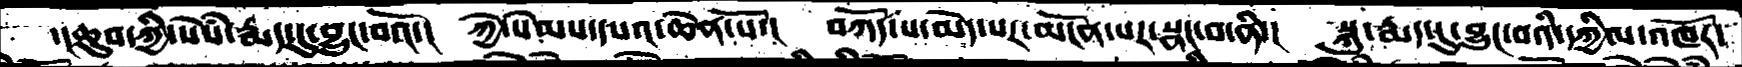་།ཆུབ་ཀྱི་སེཾས་རྨད་དུ་བྱུང་བའོ་།  ཀྱེ་སེམས་དཔའ་ཆེན་པོ་།  བཀོད་པ་མེད་པར་མངོན་པར་སྣང་བ་ནི་།  སྐུ་རྨད་དུ་བྱུང་བའི་དཀྱིལ་འཁོར་
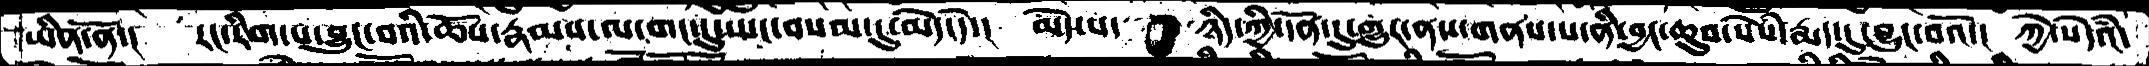ཡིན་ནོ་།  རང་རིག་པ་བྱུང་བའི་ཆོས་རྣམས་ལ་གང་དུ་ཡང་བསམ་དུ་མེད་དེ་།  མེད་པ་ཉིད་ཀྱི་དོན་དུ་གྱུར་ནས་གནས་པ་ནི་བྱང་ཆུབ་སེཾས་རྨད་དུ་བྱུང་བའོ་།  ཀྱེ་སེདཾའ་
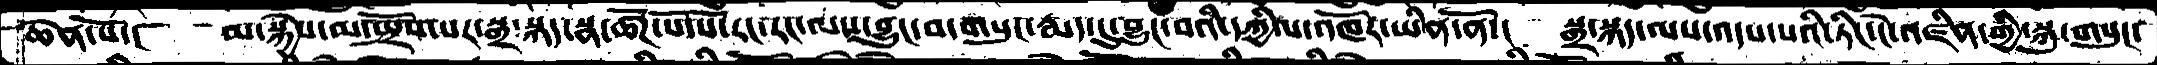ཆེན་པོ་།  མ་སྐྱེས་མ་སྤྲོས་པར་སྒྲ་སྐད་སྣ་ཚོཌ་སོ་སོ་རང་རང་ལས་བྱུང་བ་གསུང་རྨད་དུ་བྱུང་བའི་དཀྱིལ་འཁོར་ཡིན་ནོ་།  སྒྲ་སྐད་ལས་འདས་པའི་ཏིང་ངེ་འཛིན་གྱི་སྐུ་གསུང་
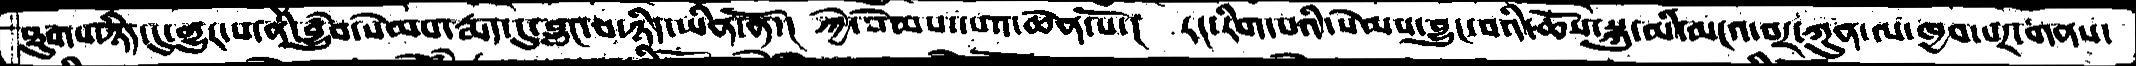ཐུགས་ཉིད་དུ་གྱུར་པ་ནི་བྱུཾབ་སེམས་རྨད་དུ་བྱུང་བ་ཉིད་ཡིན་ནོ་།  ཀྱེ་སེམས་དཔའ་ཆེན་པོ་།  རང་རིག་པའི་སེམས་བྱུང་བའི་ཆོས་སྐུ་མི་མངའ་བར་ཀུན་ལ་ཁྱབ་པར་གནས་
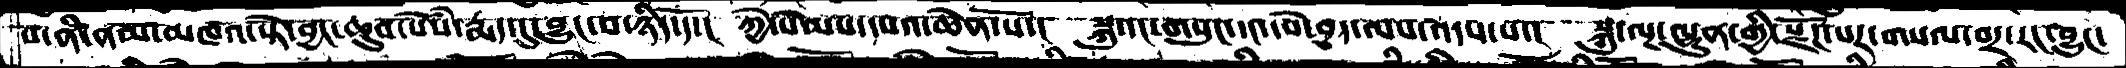པ་ནི་ནམ་མཁའ་སྟེ་བྱང་ཆུབ་སེཾས་རྨད་དུ་བྱུང་བ་ཉིད་དོ་།  ཀྱེ་སེམས་དཔའ་ཆེན་པོ་།  སྐུ་དང་གསུང་དང་དཔེ་བྱད་ལས་འདས་པ་།  སྐུ་ལྔ་ལྷུན་གྱི་སྫོཌ་པར་གསལ་བར་རང་བྱུང་
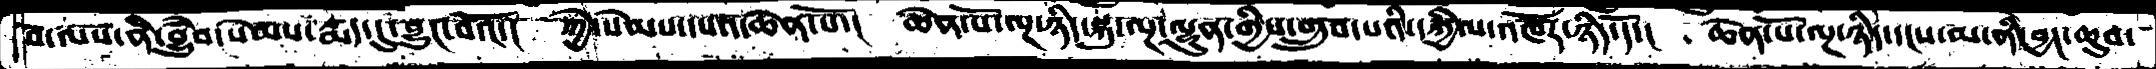བ་ལས་ནི་བྱུཾབ་སེམས་རྨད་དུ་བྱུང་བའོ་།  ཀྱེ་སེམས་དཔའ་ཆེན་པོ་། ཆེན་པོ་ལྔ་ཉིད་སྐུ་ལྔ་ལྷུན་གྱིས་གྲུབ་པའི་དཀྱིལ་འཁོར་ཉིད་དོ་།  ཆེན་པོ་ལྔ་ཉིད་དངས་མ་ནི་བྱང་ཆུབ་
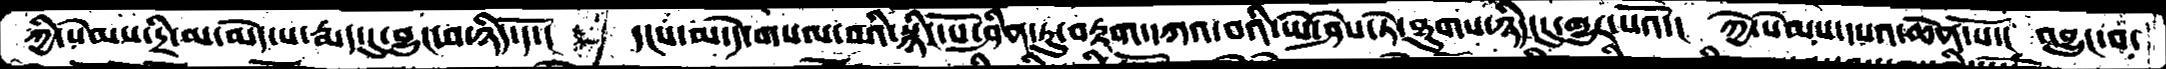ཀྱེ་སེམས་དྲི་མ་མེད་པ་རྨད་དུ་བྱུང་བ་ཉིད་དོ་།  དངས་མ་དེ་གསལ་བའི་སྙིང་པོ་ཤིན་ཏུ་བརྟག་དཀའ་བའི་ཡེ་ཤེས་ཏེ་ཐུགས་ཉིད་དུ་གྱུར་པའོ་།  ཀྱེ་སེམས་དཔའ་ཆེན་པོ་། འབྱུང་བ་
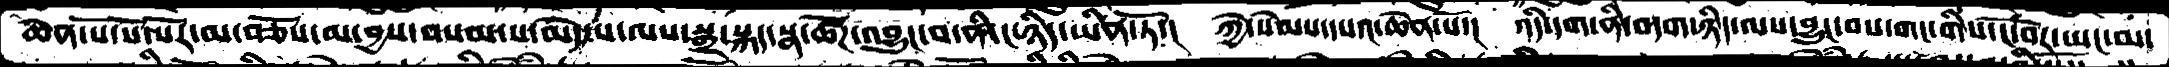ཆེན་པོ་སོ་སོར་མ་བཅོས་མ་བྱས་བསམ་པ་མེད་པ་ལས་སྒྲ་སྐད་སྣ་ཚོཌ་འབྱུང་བ་ནི་ང་ཉིད་ཡིན་ཏོ་།  ཀྱེ་སེམས་དཔའ་ཆེན་པོ་།  འདི་དག་ནི་བདག་ཉིད་ལས་བྱུང་བས་གང་གིས་ངོ་བོར་ཡང་མ་
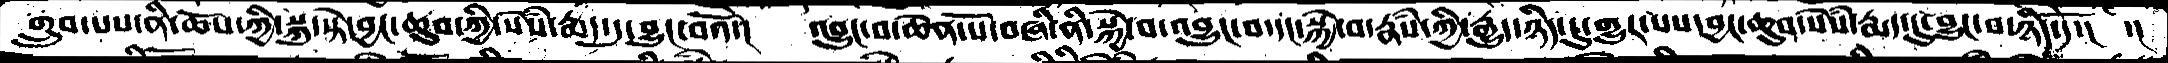གྲུབ་པས་ནི་ཆོས་ཀྱི་སྐུ་སྟེ་བྱང་ཆུབ་ཀྱི་སེཾས་རྨད་དུ་བྱུང་བའོ་།  འབྱུང་བ་ཆེན་པོ་བཞི་ནི་སྐྱེ་བ་འབྱུང་བ་དང་སྐྱེ་བ་རྣཾས་ཀྱི་རྒྱུད་ཉིད་དུ་གྱུར་པས་བྱང་ཆུབ་སེཾས་རྨད་དུ་བྱུང་པ་ཉིད་དོ་།  ་།
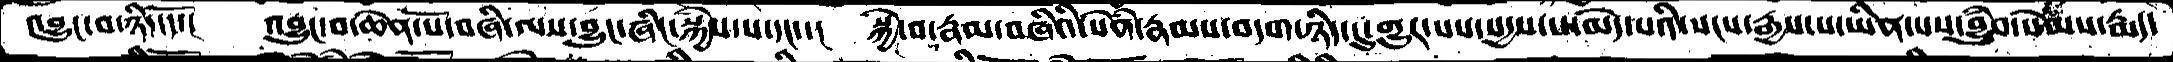འབྱུང་བ་ཉིད་དོ་།  འབྱུང་བ་ཆེན་པོ་བཞི་ལས་བྱུང་ཞིང་སྐྱེས་པ་དང་་།  སྐྱེ་བ་རྣམ་བཞིའི་སེཾན་རྣམས་བདག་ཉིད་དུ་གྱུར་པས་སདྱས་པ་མེད་པའི་སངས་རྒྱས་པ་ཡིན་པས་བྱུཾབ་སེམས་རྨད་
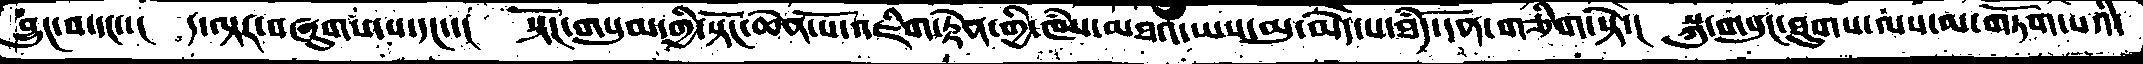བྱུང་བ་དང་་།  ད་ལྟར་བཞུགས་པ་དང་་།  སྟོང་གསུམ་གྱི་སྟོང་ཆེན་པོ་འཇིག་རྟེན་གྱི་ཁཾས་མཐའ་ཡས་མུ་མེད་པ་ཐཾད་དོན་གཅིག་སྟེ་།  སྐུ་གསུང་ཐུགས་ལས་མ་གཏོག་པའི་
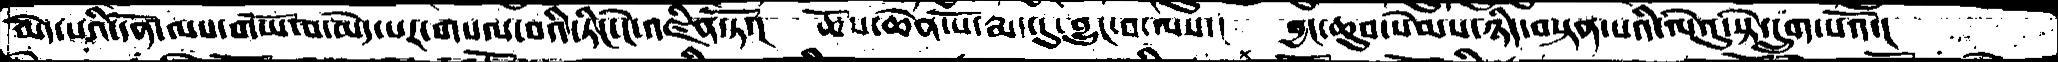མེད་པའི་དོན་ལས་གཡོ་བ་མེད་པར་གསལ་བའི་ཏིང་ངེ་འཛིན་ཏོ་།  ཆོས་ཆེན་པོ་རྨད་དུ་བྱུང་བ་ལས་།  བྱང་ཆུབ་སེམས་ཉིད་བསྟན་པའི་ལེའུ་སྟེ་དྲུག་པའོ་།
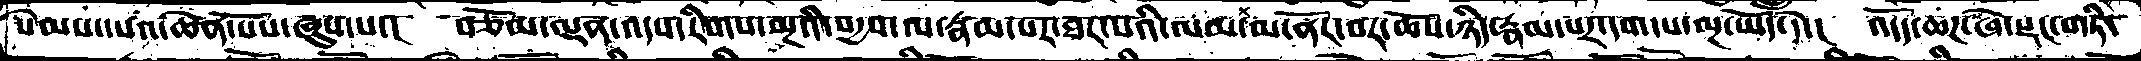སེམས་དཔའ་ཆེན་པོས་ཞུས་པ་།  བཅོམ་ལྡན་འདས་རིགས་ལྔའི་སདྱས་ལ་རྣམ་པར་ཐར་པའི་ལམ་མ་ནོར་བར་ཆོས་ཉིད་རྣམ་པར་དག་པ་ལྔ་ཡོད་དེ་།  འདོད་ཆཌ་ཞེ་སྡང་གཏི་
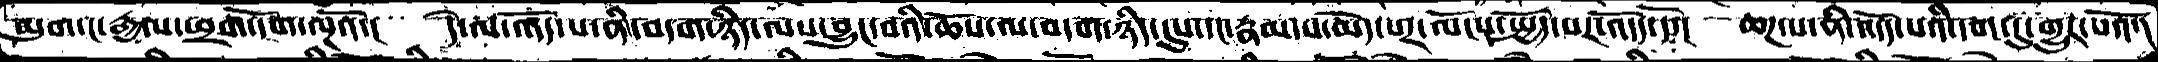མུག་ང་རྒྱལ་ཕྲག་དོག་ལྔའོ་།  དེ་ལ་འདོད་པ་ནི་བདག་ཉིད་ལས་བྱུང་བའི་ཆོས་ལ་བདག་ཉིད་དུས་དང་རྣམ་པ་མེད་པར་ལོངས་སྤྱོད་པར་འདོད་དོ་།  ཆཌ་པ་ནི་འདོད་པའི་དག་དུ་གྱུར་པའོ་།
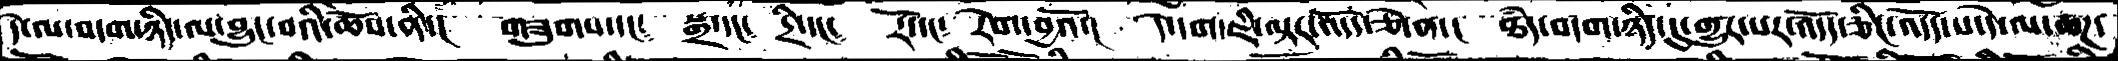དེ་ལ་བདག་ཉིད་ལ་བྱུང་བའི་ཆོས་ནི་།  གཟུགས་དང༴ སྒྲ་དང༴ དྲི་དང༴  རོ་དང༴  རེག་བྱའོ་།  དེ་དག་ཇི་ལྟར་འདོད་ཅེ་ན་།  ཐཾད་བདག་ཉིད་དུ་གྱུར་པར་འདོད་ཅིང་འདོད་པ་དེ་ལ་ཆཌ་
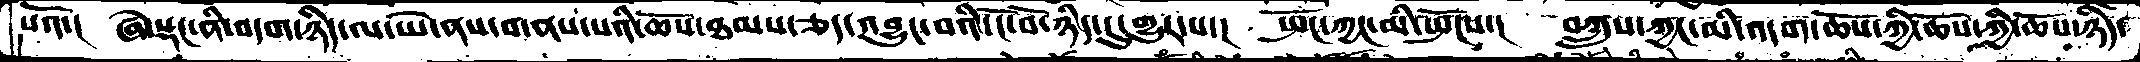པའོ་།  ཞེ་སྡང་ནི་བདག་ཉིད་ལ་ཡེ་ནས་གནས་པའི་ཆོས་ཐམས་ཅད་འབྱུང་བའི་ངོ་བོ་ཉིད་དུ་གྱུར་པ་།  སྤོང་ཀྱང་མི་སྤོངས་།  བཀྲུས་ཀྱང་མི་འདག་ཆོས་ཀྱི་ཆོས་ཀྱི་ཆོས་ཉིད་
